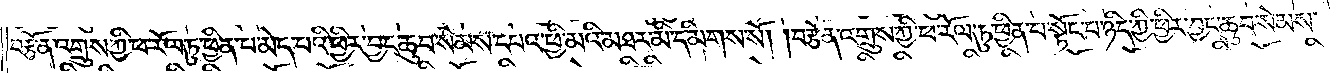བརྩོན་འགྲུས་ཀྱི་ཕ་རོལ་ཏུ་ཕྱིན་པ་མེད་པའི་ཕྱིར་བྱང་ཆུབ་སེམས་དཔའ་ཕྱི་མའི་མཐར་མི་དམིགས་སོ། །བརྩོན་འགྲུས་ཀྱི་ཕ་རོལ་ཏུ་ཕྱིན་པ་སྟོང་པ་ཉིད་ཀྱི་ཕྱིར་བྱང་ཆུབ་སེམས་
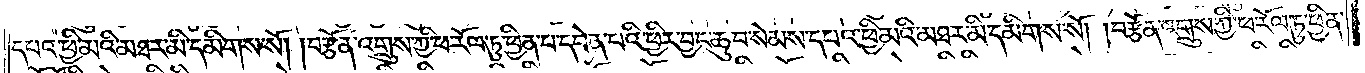དཔའ་ཕྱི་མའི་མཐར་མི་དམིགས་སོ། །བརྩོན་འགྲུས་ཀྱི་ཕ་རོལ་ཏུ་ཕྱིན་པ་དབེན་པའི་ཕྱིར་བྱང་ཆུབ་སེམས་དཔའ་ཕྱི་མའི་མཐར་མི་དམིགས་སོ། །བརྩོན་འགྲུས་ཀྱི་ཕ་རོལ་ཏུ་ཕྱིན་
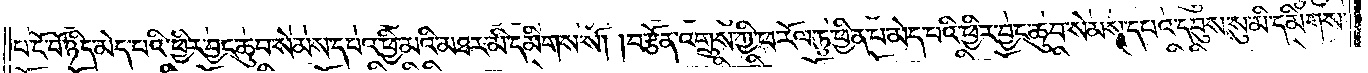པ་ངོ་བོ་ཉིད་མེད་པའི་ཕྱིར་བྱང་ཆུབ་སེམས་དཔའ་ཕྱི་མའི་མཐར་མི་དམིགས་སོ། །བརྩོན་འགྲུས་ཀྱི་ཕ་རོལ་ཏུ་ཕྱིན་པ་མེད་པའི་ཕྱིར་བྱང་ཆུབ་སེམས་དཔའ་དབུས་སུ་མི་དམིགས་
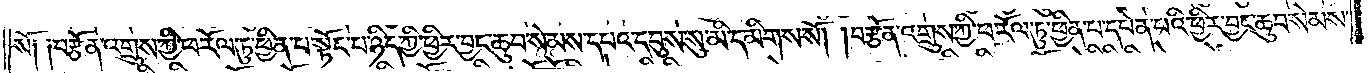སོ༑ ༑བརྩོན་འགྲུས་ཀྱི་ཕ་རོལ་ཏུ་ཕྱིན་པ་སྟོང་པ་ཉིད་ཀྱི་ཕྱིར་བྱང་ཆུབ་སེམས་དཔའ་དབུས་སུ་མི་དམིགས་སོ། །བརྩོན་འགྲུས་ཀྱི་ཕ་རོལ་ཏུ་ཕྱིན་པ་དབེན་པའི་ཕྱིར་བྱང་ཆུབ་སེམས་
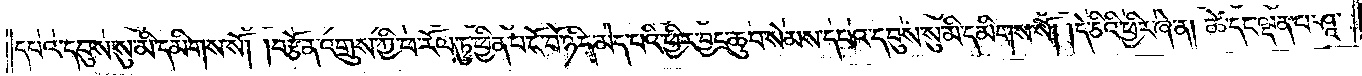དཔའ་དབུས་སུ་མི་དམིགས་སོ། །བརྩོན་འགྲུས་ཀྱི་ཕ་རོལ་ཏུ་ཕྱིན་པ་ངོ་བོ་ཉིད་མེད་པའི་ཕྱིར་བྱང་ཆུབ་སེམས་དཔའ་དབུས་སུ་མི་དམིགས་སོ། །དེ་ཅིའི་ཕྱིར་ཞེ་ན། ཚེ་དང་ལྡན་པ་ཤཱ་
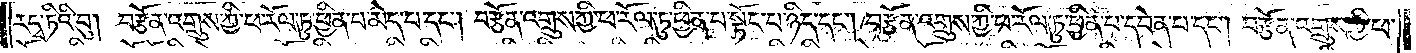རདྭ་ཏིའི་བུ། བརྩོན་འགྲུས་ཀྱི་ཕ་རོལ་ཏུ་ཕྱིན་པ་མེད་པ་དང༌། བརྩོན་འགྲུས་ཀྱི་ཕ་རོལ་ཏུ་ཕྱིན་པ་སྟོང་པ་ཉིད་དང༌། བརྩོན་འགྲུས་ཀྱི་ཕ་རོལ་ཏུ་ཕྱིན་པ་དབེན་པ་དང༌། བརྩོན་འགྲུས་ཀྱི་ཕ་
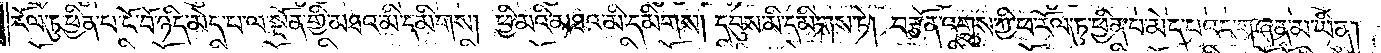རོལ་ཏུ་ཕྱིན་པ་ངོ་བོ་ཉིད་མེད་པ་ལ་སྔོན་གྱི་མཐའ་མི་དམིགས། ཕྱི་མའི་མཐའ་མི་དམིགས། དབུས་མི་དམིགས་ཏེ། བརྩོན་འགྲུས་ཀྱི་ཕ་རོལ་ཏུ་ཕྱིན་པ་མེད་པའང་གཞན་མ་ཡིན།
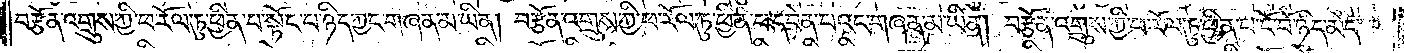བརྩོན་འགྲུས་ཀྱི་ཕ་རོལ་ཏུ་ཕྱིན་པ་སྟོང་པ་ཉིད་ཀྱང་གཞན་མ་ཡིན། བརྩོན་འགྲུས་ཀྱི་ཕ་རོལ་ཏུ་ཕྱིན་པ་དབེན་པའང་གཞན་མ་ཡིན། བརྩོན་འགྲུས་ཀྱི་ཕ་རོལ་ཏུ་ཕྱིན་པ་ངོ་བོ་ཉིད་མེད་
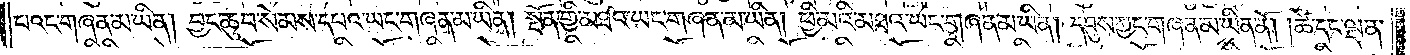པའང་གཞན་མ་ཡིན། བྱང་ཆུབ་སེམས་དཔའ་ཡང་གཞན་མ་ཡིན། སྔོན་གྱི་མཐའ་ཡང་གཞན་མ་ཡིན། ཕྱི་མའི་མཐའ་ཡང་གཞན་མ་ཡིན། དབུས་ཀྱང་གཞན་མ་ཡིན་ནོ། །ཚེ་དང་ལྡན་
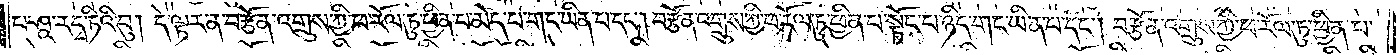པ་ཤཱ་རདྭ་ཏིའི་བུ། དེ་ལྟར་ན་བརྩོན་འགྲུས་ཀྱི་ཕ་རོལ་ཏུ་ཕྱིན་པ་མེད་པ་གང་ཡིན་པ་དང༌། བརྩོན་འགྲུས་ཀྱི་ཕ་རོལ་ཏུ་ཕྱིན་པ་སྟོང་པ་ཉིད་གང་ཡིན་པ་དང༌། བརྩོན་འགྲུས་ཀྱི་ཕ་རོལ་ཏུ་ཕྱིན་པ་
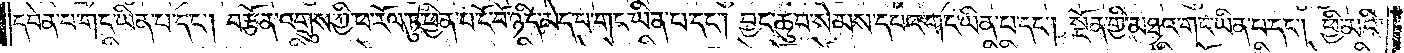དབེན་པ་གང་ཡིན་པ་དང༌། བརྩོན་འགྲུས་ཀྱི་ཕ་རོལ་ཏུ་ཕྱིན་པ་ངོ་བོ་ཉིད་མེད་པ་གང་ཡིན་པ་དང༌། བྱང་ཆུབ་སེམས་དཔའ་གང་ཡིན་པ་དང༌། སྔོན་གྱི་མཐའ་གང་ཡིན་པ་དང༌། ཕྱི་མའི་
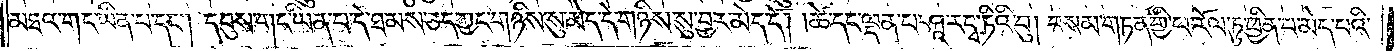མཐའ་གང་ཡིན་པ་དང༌། དབུས་གང་ཡིན་པ་དེ་ཐམས་ཅད་ཀྱང་གཉིས་སུ་མེད་དེ་གཉིས་སུ་བྱར་མེད་དོ། །ཚེ་དང་ལྡན་པ་ཤཱ་རདྭ་ཏིའི་བུ། བསམ་གཏན་གྱི་ཕ་རོལ་ཏུ་ཕྱིན་པ་མེད་པའི་
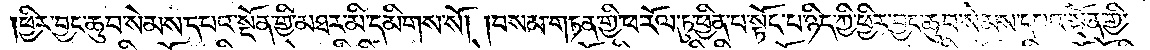ཕྱིར་བྱང་ཆུབ་སེམས་དཔའ་སྔོན་གྱི་མཐར་མི་དམིགས་སོ། །བསམ་གཏན་གྱི་ཕ་རོལ་ཏུ་ཕྱིན་པ་སྟོང་པ་ཉིད་ཀྱི་ཕྱིར་བྱང་ཆུབ་སེམས་དཔའ་སྔོན་གྱི་
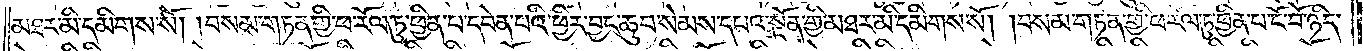མཐར་མི་དམིགས་སོ། །བསམ་གཏན་གྱི་ཕ་རོལ་ཏུ་ཕྱིན་པ་དབེན་པའི་ཕྱིར་བྱང་ཆུབ་སེམས་དཔའ་སྔོན་གྱི་མཐར་མི་དམིགས་སོ། །བསམ་གཏན་གྱི་ཕ་རོལ་ཏུ་ཕྱིན་པ་ངོ་བོ་ཉིད་
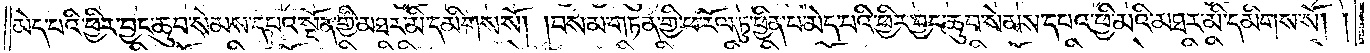མེད་པའི་ཕྱིར་བྱང་ཆུབ་སེམས་དཔའ་སྔོན་གྱི་མཐར་མི་དམིགས་སོ། །བསམ་གཏན་གྱི་ཕ་རོལ་ཏུ་ཕྱིན་པ་མེད་པའི་ཕྱིར་བྱང་ཆུབ་སེམས་དཔའ་ཕྱི་མའི་མཐར་མི་དམིགས་སོ། །
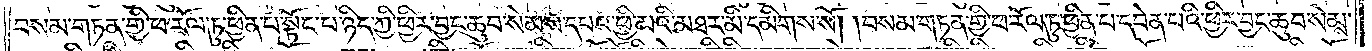བསམ་གཏན་གྱི་ཕ་རོལ་ཏུ་ཕྱིན་པ་སྟོང་པ་ཉིད་ཀྱི་ཕྱིར་བྱང་ཆུབ་སེམས་དཔའ་ཕྱི་མའི་མཐར་མི་དམིགས་སོ། །བསམ་གཏན་གྱི་ཕ་རོལ་ཏུ་ཕྱིན་པ་དབེན་པའི་ཕྱིར་བྱང་ཆུབ་སེམས་
